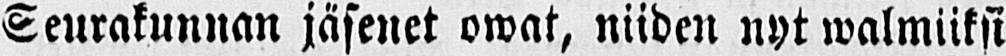Seurakunnan jäsenet owat, niiden nyt walmiiksi
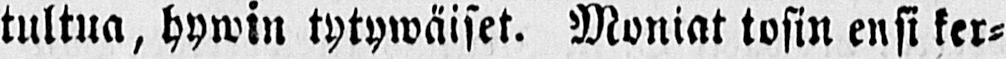tultua, hywin tytywäiset. Moniat tosin ensi ker-
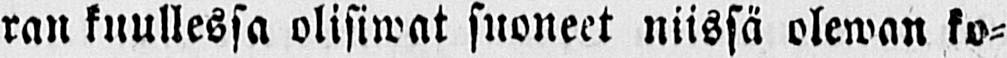ran kuullessa olisiwat suoneet niissä olewan ko-
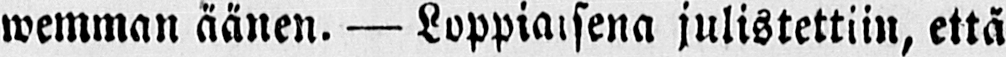wemman äänen. — Loppiaisena julistettiin, että
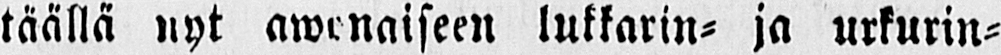täällä nyt awonaiseen lukkarin- ja urkurin-
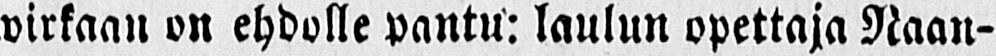wirkaan on ehdolle pantu: laulun opettaja Naan-
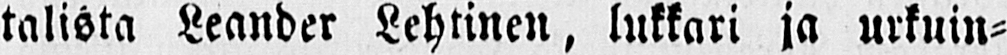talista Leander Lehtinen, lukkari ja urkuin-
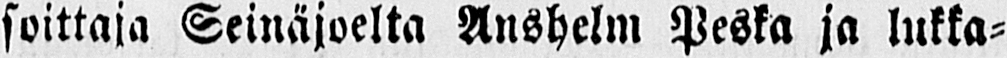soittaja Seinäjoelta Anshelm Peska ja lukka-
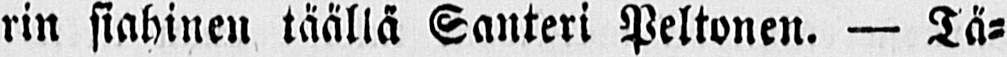rin siahinen täällä Santeri Peltonen. — Tä-
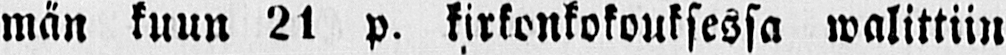män kuun 21 p. kirkonkokouksessa walittiin
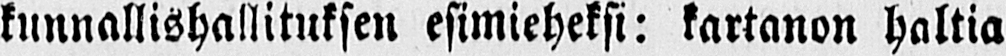kunnallishallituksen esimieheksi: kartanon haltia
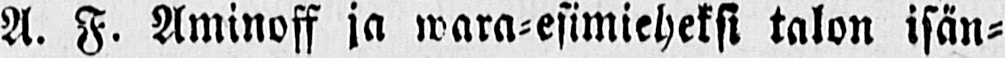A. F. Aminoff ja wara-esimieheksi talon isän-
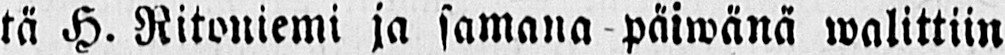tä H. Ritoniemi ja samana päiwänä walittiin
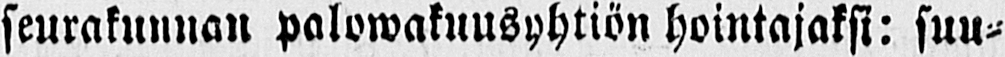seurakunnan palowakuusyhtiön hointajaksi: suu-
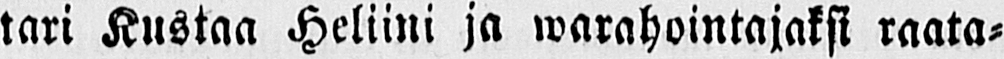tari Kustaa Heliini ja warahointajaksi raata-
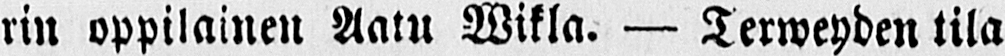rin oppilainen Aatu Wikla. — Terweyden tila
